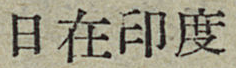日在印度
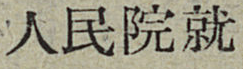人民院就
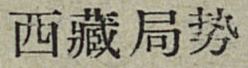西藏局势
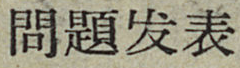問題发表
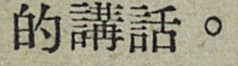的講話。
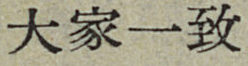大家一致
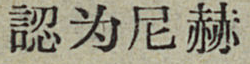認为尼赫
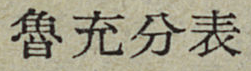魯充分表
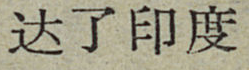达了印度
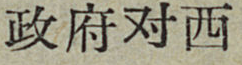政府对西
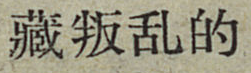藏叛乱的
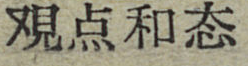覌点和态
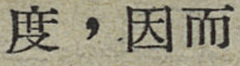度，因而
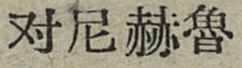对尼赫魯
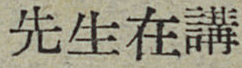先生在講
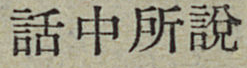話中所說
